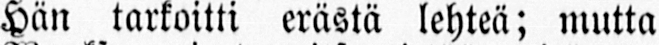Hän tarkoitti erästä lehteä; mutta
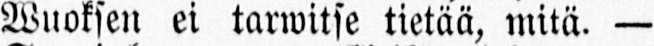Wuoksen ei tarwitse tietää, mitä. —
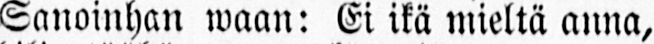Sanoinhan waan: Ei ikä mieltä anna,
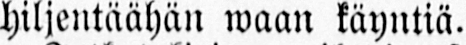hiljentäähän waan käyntiä.
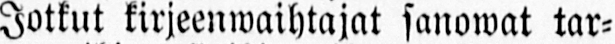Jotkut kirjeenwaihtajat sanowat tar-
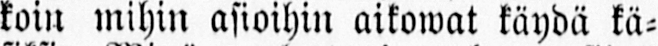koin mihin asioihin aikowat käydä kä-
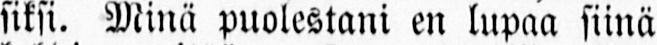siksi. Minä puolestani en lupaa siinä
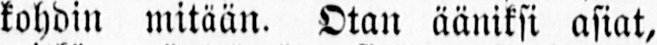kohdin mitään. Otan ääniksi asiat,
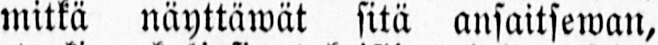mitkä näyttäwät sitä ansaitsewan,
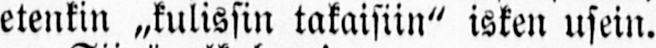etenkin ˶kulissin takaisiin" isken usein.
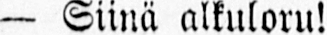— Siinä alkuloru!
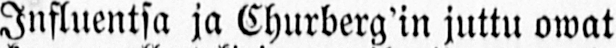Influentsa ja Churberg'in juttu owat
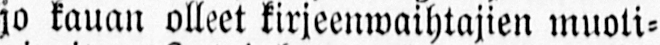jo kauan olleet kirjeenwaihtajien muoti-
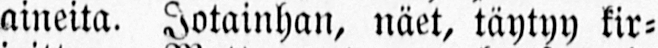aineita. Jotainhan, näet, täytyy kir-
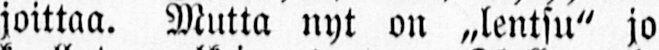joittaa. Mutta nyt on ˶lentsu" jo
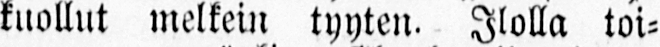kuollut melkein tyyten. Ilolla toi-
